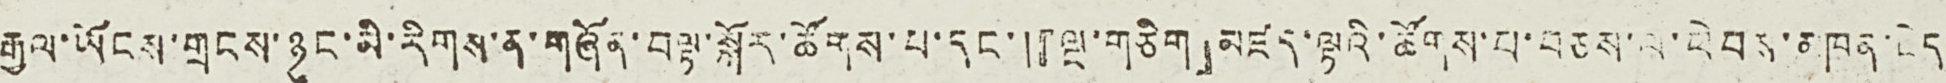རྒྱལ་ཡོངས་གྲངས་ཉུང་མི་རིགས་ན་གཞོན་བལྟ་སྐོར་ཚོགས་པ་དང་།『ལྔ་གཅིག』མཛད་ལྟའི་ཚོགས་པ་བཅས་ལ་ཕེབས་མཁན་ཆེད་
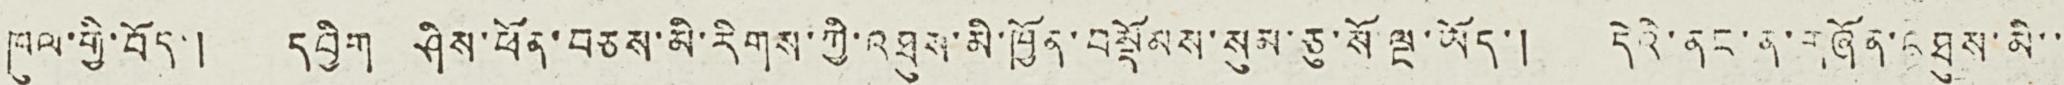ཁུལ་གྱི་བོད་། དབྱིག ཤིས་ཕོན་བཅས་མི་རིགས་ཀྱི་འཐུས་མི་ཁྱོན་བསྡོམས་སུམ་ཅུ་སོ་ལྔ་ཡོད་། དེའི་ནང་ན་གཞོན་འཐུས་མི་་་
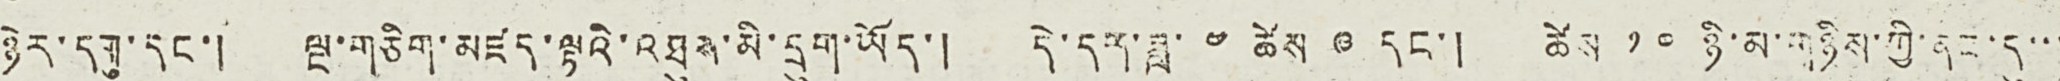ཉེར་དགུ་དང་། ལྔ་གཅིག་མཛད་ལྟའི་འཐུས་མི་དྲུག་ཡོད་། དེ་དག་ཟླ་ ༤ ཚེས ༩ དང་། ཚེས ༡༠ ཉི་མ་གཉིས་ཀྱི་ནང་དུ་་་
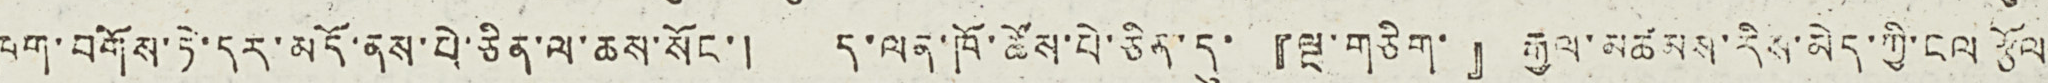ཁག་བགོས་ཏེ་དར་མདོ་ནས་པེ་ཅིན་ལ་ཆས་སོང་། ད་ལན་ཁོ་ཚོས་པེ་ཅིན་དུ་『ལྔ་གཅིག་』རྒྱལ་མཚམས་རིས་མེད་ཀྱི་ངལ རྩོལ
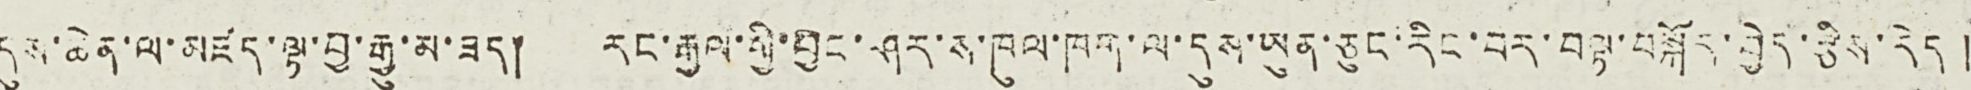དུས་ཆེན་ལ་མཛད་ལྟ་བྱ་རྒྱུ་མ་ཟད། རང་རྒྱལ་གྱི་བྱང་ཤར་ས་ཁུལ་ཁག་ལ་དུས་ཡུན་ཅུང་རིང་བར་བལྟ་བསྐོར་བྱེད་རྩིས་རེད །
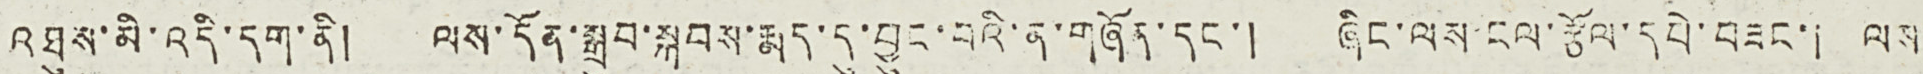འཐུས་མི་འདི་དག་ནི། ལས་དོན་སྒྲུབ་སྐབས་རྨད་དུ་བྱུང་བའི་ན་གཞོན་དང་། ཞིང་ལས་ངལ་རྩོལ་དཔེ་བཟང་། ལས་
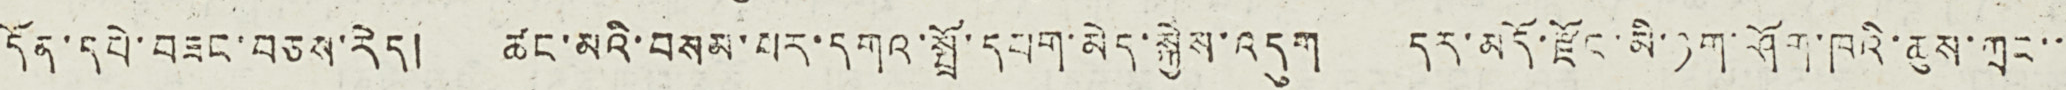དོན་དཔེ་བཟང་བཅས་རེད། ཚང་མའི་བསམ་པར་དགའ་སྤྲོ་དཔག་མེད་སྐྱེས་འདུག དར་མདོ་རྫོང་མི་ཉག་ཤོག་ཁའི་ཆུས་ཀྲང་་
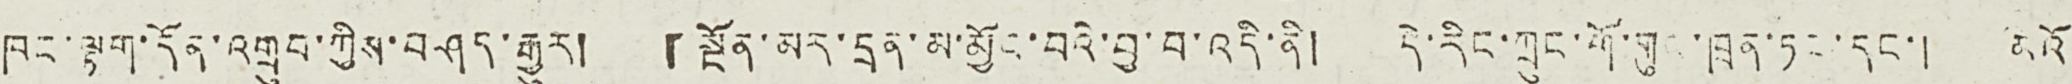ཁང་ལྟག་དོན་འགྲུབ་ཀྱིས་བཤད་རྒྱུར། 『སྔོན་མར་དྲན་མ་མྱོང་བའི་བྱ་བ་འདི་ནི། དེ་རིང་ཀྲུང་གོ་གུང་ཁྲན་ཏང་དང་། མའོ
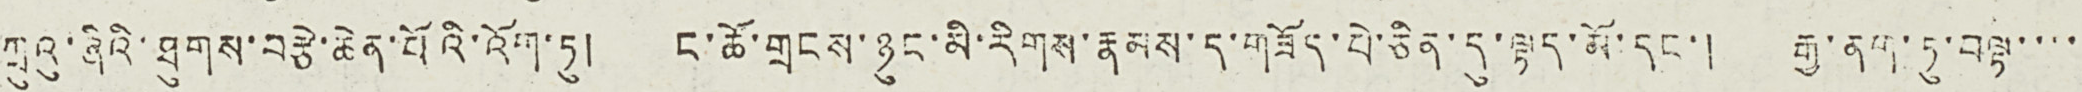ཀྲུའུ་ཞིའི་ཐུགས་བརྩེ་ཆེན་པོའི་འོག་ཏུ། ང་ཚོ་གྲངས་ཉུང་མི་རིགས་རྣམས་ད་གཟོད་པེ་ཅིན་དུ་ལྟད་མོ་དང་། རྒྱ་ནག་ཏུ་བལྟ་་་་
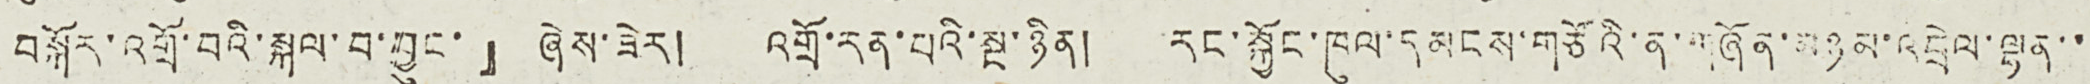བསྐོར་འགྲོ་བའི་སྐལ་བ་བྱུང་』ཞེས་ཟེར། འགྲོ་རན་པའི་སྔ་ཉིན། རང་སྐྱོང་ཁུལ་དམངས་གཙོའི་ན་གཞོན་མཉམ་འབྲེལ་ལྷན་་
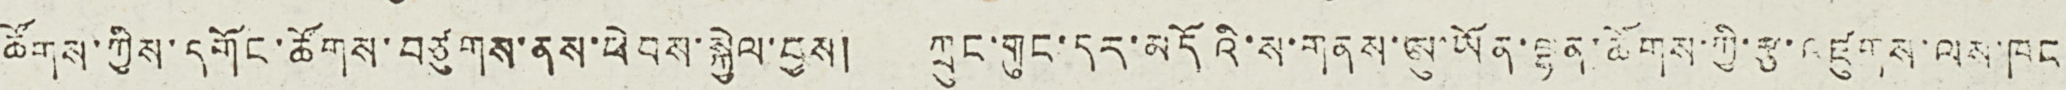ཚོགས་ཀྱིས་དགོང་ཚོགས་བཙུགས་ནས་ཕེབས་སྐྱེལ་བྱས། ཀྲུང་གུང་དར་མདོའི་ས་གནས་ཨུ་ཡོན་ལྷན་ཚོགས་ཀྱི་རྩ་འཛུགས་ལས་ཁང་
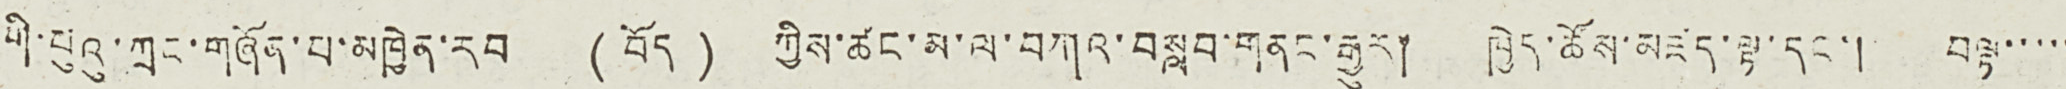གི་པུའུ་ཀྲང་གཞོན་པ་མཁྱེན་རབ ( བོད ) ཀྱིས་ཚང་མ་ལ་བཀའ་བསླབ་གནང་རྒྱུར། ཁྱེད་ཚོས་མཛད་ལྟ་དང་། བལྟ་་་་་
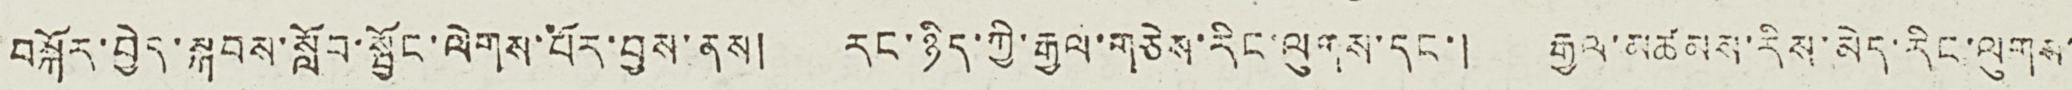བསྐོར་བྱེད་སྐབས་སློབ་སྦྱོང་ལེགས་པོར་བྱས་ནས། རང་ཉིད་ཀྱི་རྒྱལ་གཅེས་རིང་ལུགས་དང་། རྒྱལ་མཚམས་རིས་མེད་རིང་ལུགས་
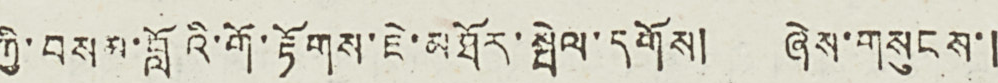ཀྱི་བསལ་བློའི་གོ་རྟོགས་ཇེ་མཐོར་སྤེལ་དགོས། ཞེས་གསུངས་།
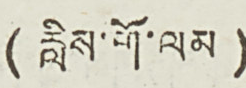( རླིས་གོ་ལམ )
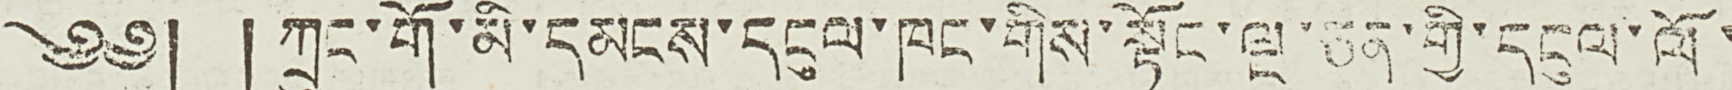༄༅། ། ཀྲུང་གོ་མི་དམངས་དངུལ་ཁང་གིས་སྟོང་ལྔ་ཅན་གྱི་དངུལ་ལོ་
